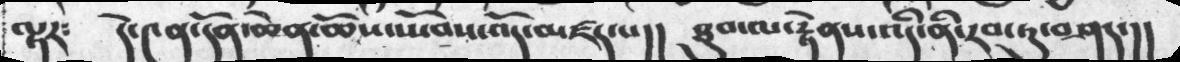ལྟར༴  དེ་༤ན་དོན་ཆེན་ཆོས་སྤོབས་འོད་མཛད་པ།།  ཐུབ་ལ་རྟེནས་འདི་ནི་རབ་ཏུ་བཤད་།།
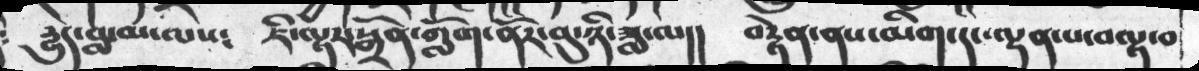རྱུད་བླ་མ་ལས༴  ཇི་ལྟར་སྒྲོན་གློག་ནོར་བུ་ཉི་ཟླ་ལ།།  བརྟེན་ནས་མིག་དང་ལྡན་པ་བལྟ་བ
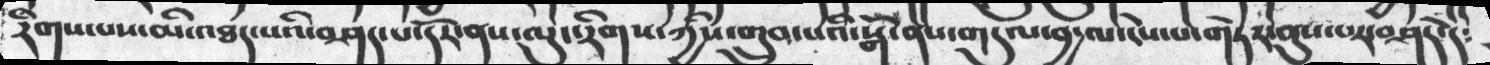རིགས་པས་མི་འཐད་པའི་བཤད་པ་དོར་ནས་ལུང་རིགས་ཀྱིས་གྲུབ་པའི་སྒོ་ནས་གདུལ་བྱ་ལ་ངེས་པ་གཏེར་ནུས་པར་བཤད་དེ༴
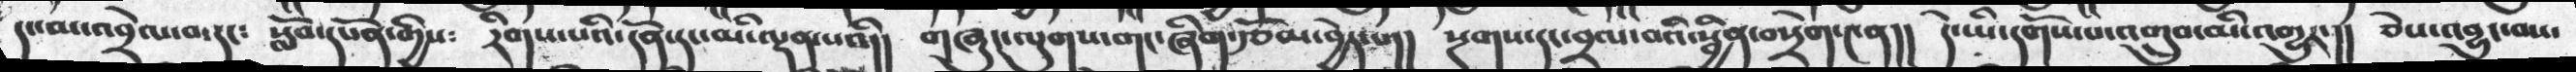དང་མ་འབྲེལ་བ་དང༴ སློབ་དཔོན་གྱིས༴ རིགས་པའི་དོན་དང་མི་ལྡན་པའི།།  གཞུང་ལུགས་གང་ཞིག་རྩོམ་བྱེད་པ།། སྔགས་དང་བྲལ་བའི་སྦྱིན་བསྲེག་༤ན།། དེ་ཡི་དགོས་པ་འགྲུབ་མི་འགྱུར་།། ཅེས་འབྱུང་བས་
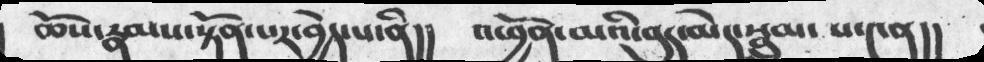ཆོས་རྣམས་སྟོན་པར་བྱེད་པ་ནི།།      འཕྱོན་མའི་བུད་མེད་སྦྲུམ་པ་༤ན།།
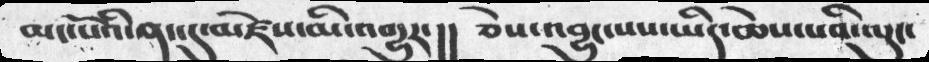མང་པོའི་ནང་དུ་མཛེས་མི་འགྱུར་།།  ཅེས་འབྱུང་པས་ཡིད་ཆེས་པའི་ལུང་
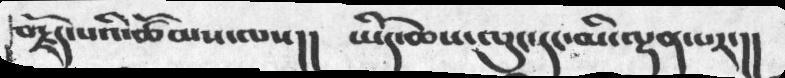བརྗོད་པའི་ཚོམས་ལས།།  ཡིད་ཆེས་ལུང་དང་མི་ལྡན་པར་།།
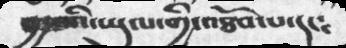བྱ་བའི་ཡུལ་གྱི་འཐོབ་པ་དང༴
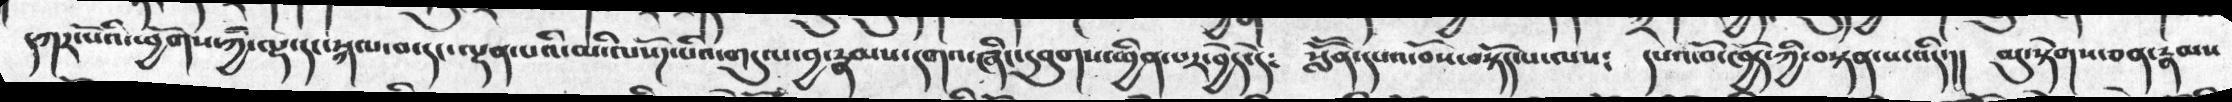དཀར་པོའི་ཕྱོགས་ཀྱི་ལྷ་དང་སྐལ་བ་དང་ལྡན་པའི་མི་ལ་སོཌ་པའི་གདུལ་བྱ་རྣམས་དགའ་ཞིང་དབུགས་ཕྱིན་པར་བྱེད་དེ༴   སློོན་དཔའ་བོས་བསྟོད་པ་ལས༴  དཔའ་བོ་ཁྱོད་ཀྱི་བསྟན་པ་འདི་།།    མུ་སྟེགས་ཅན་རྣམས
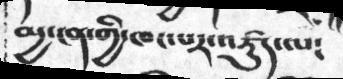མྱ་ངན་གྱི་ཁང་པར་འཛུད་ལ།
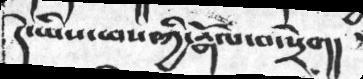དེ་ཡིས་ཕས་ཀྱི་རྒོལ་བ་སྲེག།
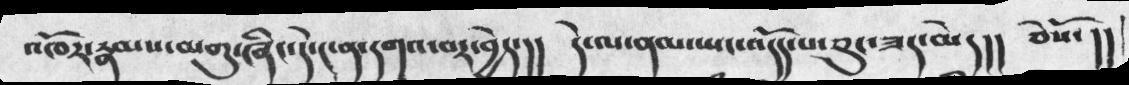འཁོར་རྣམས་་མགུ་ཞིང་དེ་༤ན་དགའ་བར་བྱེད་།།   དེ་ལ་ནམ་ཡང་འདོད་པ་ཅུང་ཟད་མེད།།   ཅེསོ་།།
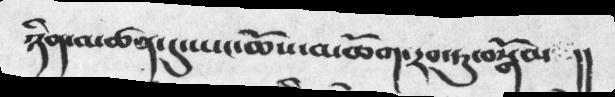ཉིན་མཚན་དུ་ཡང་ཆོས་མཆོག་རབ་ཏུ་བསྒོམ།།
